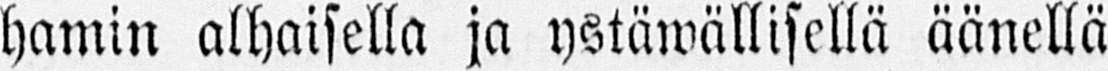hamin alhaisella ja ystäwällisellä äänellä
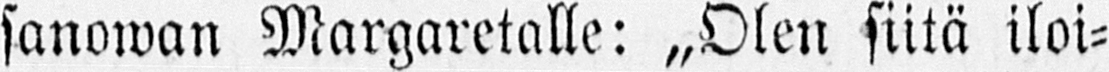sanowan Margaretalle: „Olen siitä iloi-
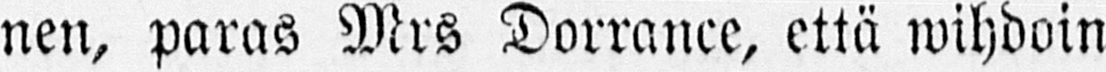nen, paras Mrs Dorrance, että wihdoin
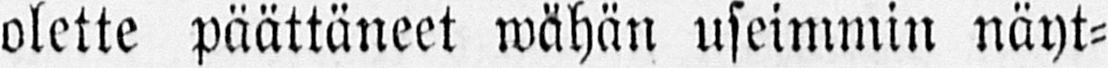olette päättäneet wähän useimmin näyt-
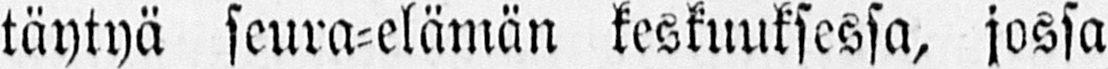täytyä seura-elämän keskuuksessa, jossa
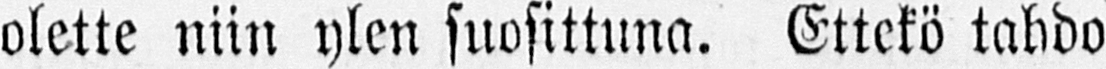olette niin ylen suosittuna. Ettekö tahdo
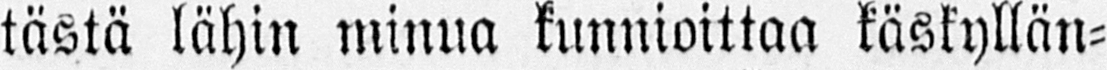tästä lähin minua kunnioittaa käskyllän-
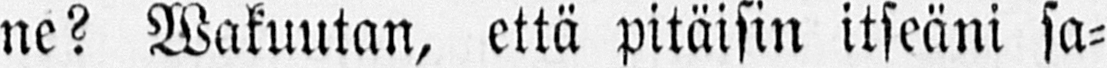ne? Wakuutan, että pitäisin itseäni sa-
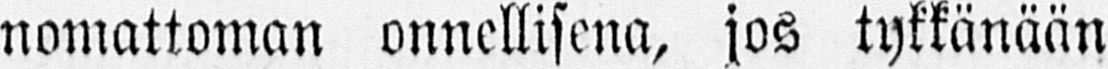nomattoman onnellisena, jos tykkänään
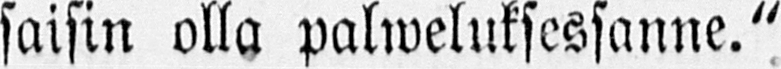saisin olla palweluksessanne."
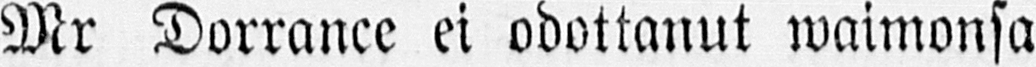Mr Dorrance ei odottanut waimonsa
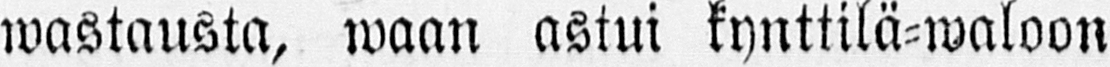wastausta, waan astui kynttilä-waloon
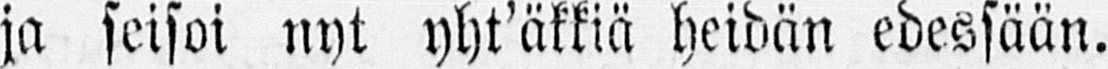ja seisoi nyt yht'äkkiä heidän edessään.
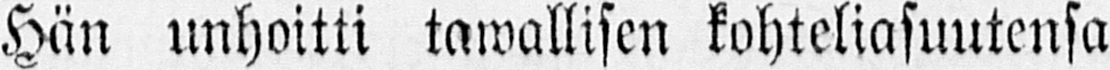Hän unhoitti tawallisen kohteliasuutensa
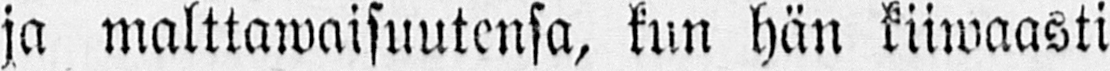ja malttawaisuutensa, kun hän kiiwaasti
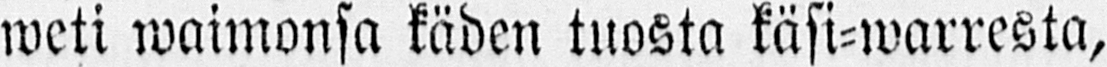weti waimonsa käden tuosta käsi-warresta,
